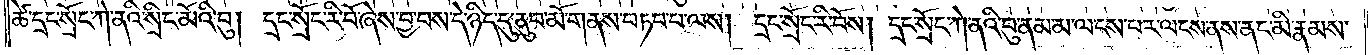ཚེ་དྲང་སྲོང་ཀེ་ནའི་སྲིང་མོའི་བུ། དྲང་སྲོང་རི་བོ་ཞེས་བྱ་བས་དེ་ཉིད་དུ་ནུབ་མོ་གནས་བཏབ་པ་ལས། དྲང་སྲོང་རི་བོས། དྲང་སྲོང་ཀེ་ནའི་བུ་ནམ་མ་ལངས་པར་ལངས་ནས་ནང་མི་རྣམས་
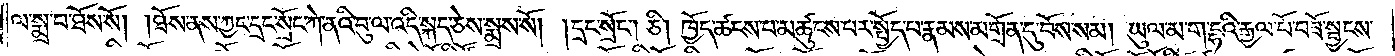ལ་སྨྲ་བ་ཐོས་སོ། །ཐོས་ནས་ཀྱང་དྲང་སྲོང་ཀེ་ནའི་བུ་ལ་འདི་སྐད་ཅེས་སྨྲས་སོ། །དྲང་སྲོང༌། ཅི། ཁྱོད་ཚངས་པ་མཚུངས་པར་སྤྱོད་པ་རྣམས་མགྲོན་དུ་བོས་སམ། ཡུལ་མ་ག་དྷའི་རྒྱལ་པོ་བཟོ་སྦྱངས་
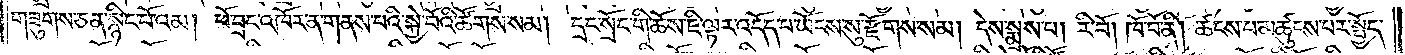གཟུགས་ཅན་སྙིང་པོ་འམ། ཕོ་བྲང་འཁོར་ན་གནས་པའི་སྐྱེ་བོའི་ཚོགས་སམ། དྲང་སྲོང་གི་ཆོས་ཇི་ལྟར་འདོད་པ་ཡོངས་སུ་རྫོགས་སམ། དེས་སྨྲས་པ། རི་བོ། ཁོ་བོ་ནི། ཚངས་པ་མཚུངས་པར་སྤྱོད་
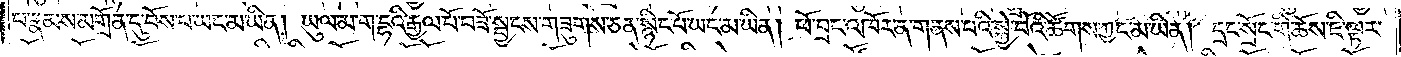པ་རྣམས་མགྲོན་དུ་བོས་པ་ཡང་མ་ཡིན། ཡུལ་མ་ག་དྷའི་རྒྱལ་པོ་བཟོ་སྦྱངས་གཟུགས་ཅན་སྙིང་པོ་ཡང་མ་ཡིན། ཕོ་བྲང་འཁོར་ན་གནས་པའི་སྐྱེ་བོའི་ཚོགས་ཀྱང་མ་ཡིན། དྲང་སྲོང་གི་ཆོས་ཇི་ལྟར་
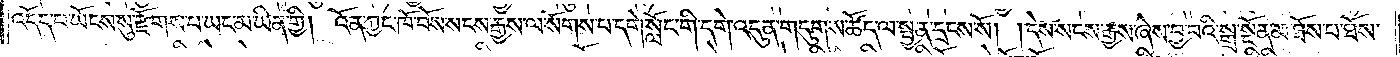འདོད་པ་ཡོངས་སུ་རྫོགས་པ་ཡང་མ་ཡིན་གྱི། འོན་ཀྱང་ཁོ་བོས་སངས་རྒྱས་ལ་སོགས་པ་དགེ་སློང་གི་དགེ་འདུན་གདུགས་ཚོད་ལ་སྤྱན་དྲངས་སོ། །དེས་སངས་རྒྱས་ཞེས་བྱ་བའི་སྒྲ་སྔོན་མ་ཐོས་པ་ཐོས་
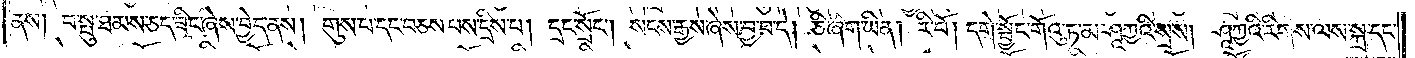ནས། བ་སྤུ་ཐམས་ཅད་ཟིང་ཞེས་བྱེད་ནས། གུས་པ་དང་བཅས་པས་དྲིས་པ། དྲང་སྲོང༌། སངས་རྒྱས་ཞེས་བྱ་བ་དེ། ཅི་ཞིག་ཡིན། རི་བོ། དགེ་སྦྱོང་གོའུ་ཏ་མ་ཤཱཀྱའི་སྲས། ཤཱཀྱའི་རིགས་ལས་སྐྲ་དང་
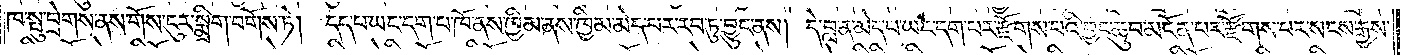ཁ་སྤུ་བྲེགས་ནས་གོས་ངུར་སྨྲིག་བགོས་ཏེ། དད་པ་ཡང་དག་པ་ཁོ་ནས་ཁྱིམ་ནས་ཁྱིམ་མེད་པར་རབ་ཏུ་བྱུང་ནས། དེ་བླ་ན་མེད་པ་ཡང་དག་པར་རྫོགས་པའི་བྱང་ཆུབ་མངོན་པར་རྫོགས་པར་སངས་རྒྱས་
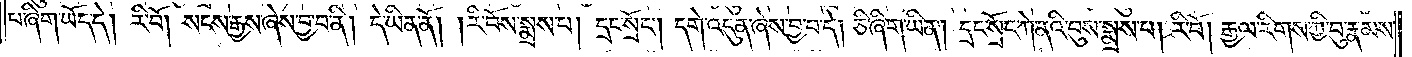པ་ཞིག་ཡོད་དེ། རི་བོ། སངས་རྒྱས་ཞེས་བྱ་བ་ནི། དེ་ཡིན་ནོ། །རི་བོས་སྨྲས་པ། དྲང་སྲོང༌། དགེ་འདུན་ཞེས་བྱ་བ་དེ། ཅི་ཞིག་ཡིན། དྲང་སྲོང་ཀེ་ནའི་བུས་སྨྲས་པ། རི་བོ། རྒྱལ་རིགས་ཀྱི་བུ་རྣམས་
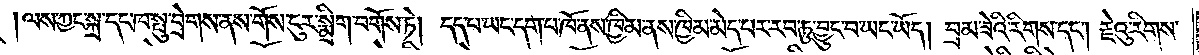ལས་ཀྱང་སྐྲ་དང་ཁ་སྤུ་བྲེགས་ནས་གོས་ངུར་སྨྲིག་བགོས་ཏེ། དད་པ་ཡང་དག་པ་ཁོ་ནས་ཁྱིམ་ནས་ཁྱིམ་མེད་པར་རབ་ཏུ་བྱུང་བ་ཡང་ཡོད། བྲམ་ཟེའི་རིགས་དང༌། རྗེའུ་རིགས་
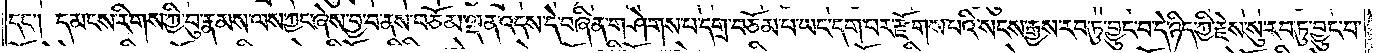དང༌། དམངས་རིགས་ཀྱི་བུ་རྣམས་ལས་ཀྱང་ཞེས་བྱ་བ་ནས་བཅོམ་ལྡན་འདས་དེ་བཞིན་གཤེགས་པ་དགྲ་བཅོམ་པ་ཡང་དག་པར་རྫོགས་པའི་སངས་རྒྱས་རབ་ཏུ་བྱུང་བ་དེ་ཉིད་ཀྱི་རྗེས་སུ་རབ་ཏུ་བྱུང་བ་
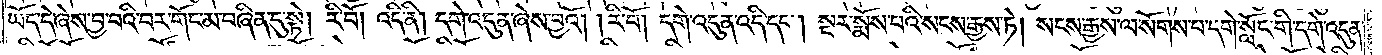ཡོད་དེ་ཞེས་བྱ་བའི་བར་གོང་མ་བཞིན་དུ་སྟེ། རི་བོ། འདི་ནི། དགེ་འདུན་ཞེས་བྱའོ། །རི་བོ། དགེ་འདུན་འདི་དང༌། སྔར་སྨོས་པའི་སངས་རྒྱས་ཏེ། སངས་རྒྱས་ལ་སོགས་པ་དགེ་སློང་གི་དགེ་འདུན་
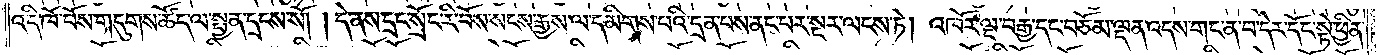འདི་ཁོ་བོས་གདུགས་ཚོད་ལ་སྤྱན་དྲངས་སོ། །དེ་ནས་དྲང་སྲོང་རི་བོས་སངས་རྒྱས་ལ་དམིགས་པའི་དྲན་པས་ནང་པར་སྔར་ལངས་ཏེ། འཁོར་ལྔ་བརྒྱ་དང་བཅོམ་ལྡན་འདས་གང་ན་བ་དེར་དོང་སྟེ་ཕྱིན་
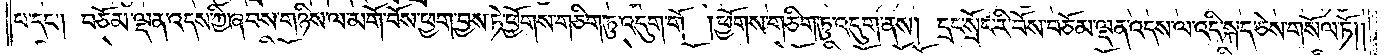པ་དང༌། བཅོམ་ལྡན་འདས་ཀྱི་ཞབས་གཉིས་ལ་མགོ་བོས་ཕྱག་བྱས་ཏེ་ཕྱོགས་གཅིག་ཏུ་འདུག་གོ །ཕྱོགས་གཅིག་ཏུ་འདུག་ནས། དྲང་སྲོང་རི་བོས་བཅོམ་ལྡན་འདས་ལ་འདི་སྐད་ཅེས་གསོལ་ཏོ། །
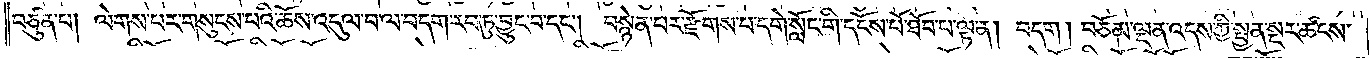བཙུན་པ། ལེགས་པར་གསུངས་པའི་ཆོས་འདུལ་བ་ལ་བདག་རབ་ཏུ་བྱུང་བ་དང༌། བསྙེན་པར་རྫོགས་པ་དགེ་སློང་གི་དངོས་པོ་ཐོབ་པ་ལྟ་ན། བདག །བཅོམ་ལྡན་འདས་ཀྱི་སྤྱན་སྔར་ཚངས་
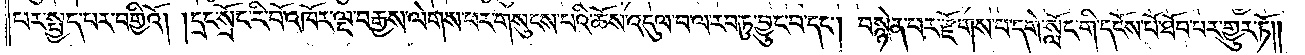པར་སྤྱད་པར་བགྱིའོ། །དྲང་སྲོང་རི་བོ་འཁོར་ལྔ་བརྒྱས་ལེགས་པར་གསུངས་པའི་ཆོས་འདུལ་བ་ལ་རབ་ཏུ་བྱུང་བ་དང༌། བསྙེན་པར་རྫོགས་པ་དགེ་སློང་གི་དངོས་པོ་ཐོབ་པར་གྱུར་ཏོ༎
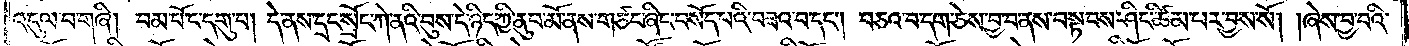འདུལ་བ་གཞི། བམ་པོ་ང་དགུ་པ། དེ་ནས་དྲང་སྲོང་ཀེ་ནའི་བུས་དེ་ཉིད་ཀྱི་ནུབ་མོ་ནས་གཙང་ཞིང་བསོད་པའི་བཟའ་བ་དང༌། བཅའ་བ་དག་ཅེས་བྱ་བ་ནས་བསྟབས་ཤིང་ཚིམ་པར་བྱས་སོ། །ཞེས་བྱ་བའི་
